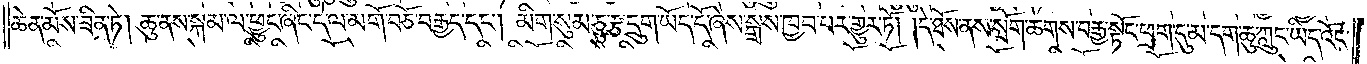ཆེན་མོས་ཟིན་ཏེ། ཆུ་ནས་སྐམ་ལ་ཕྱུང་ཞིང་དེ་ལ་མགོ་བཅོ་བརྒྱད་དང༌། མིག་སུམ་ཅུ་རྩ་དྲུག་ཡོད་དོ་ཞེས་སྒྲས་ཁྱབ་པར་གྱུར་ཏོ། །དེ་ཐོས་ནས་སྲོག་ཆགས་བརྒྱ་སྟོང་ཕྲག་དུ་མ་དག་ཆུ་ཀླུང་ཡིད་འོང་
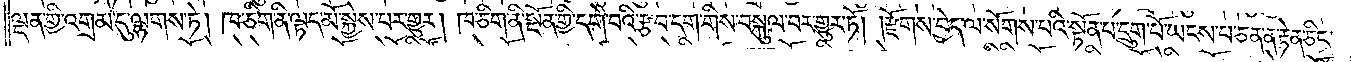ལྡན་གྱི་འགྲམ་དུ་ལྷགས་ཏེ། ཁ་ཅིག་ནི་ལྟད་མོ་སྐྱེས་པར་གྱུར། ཁ་ཅིག་ནི་སྔོན་གྱི་དགེ་བའི་རྩ་བ་དག་གིས་བསྐུལ་པར་གྱུར་ཏོ། །རྫོགས་བྱེད་ལ་སོགས་པའི་སྟོན་པ་དྲུག་པོ་ཡངས་པ་ཅན་ན་རྟེན་ཅིང་
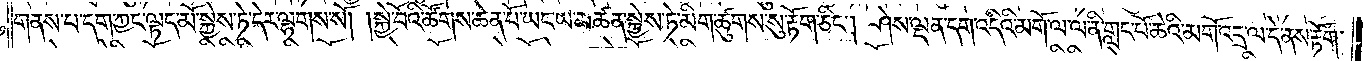གནས་པ་དག་ཀྱང་ལྟད་མོ་སྐྱེས་ཏེ་དེར་ལྷགས་སོ། །སྐྱེ་བོའི་ཚོགས་ཆེན་པོ་ཡང་ཡ་མཚན་སྐྱེས་ཏེ་མིག་ཚུགས་སུ་རྟོག་ཅིང༌། ཤེས་ལྡན་དག་འདིའི་མགོ་ལ་ལ་ནི་གླང་པོ་ཆེའི་མགོ་འདྲ་ལ་དེ་ནས་རྟོག་
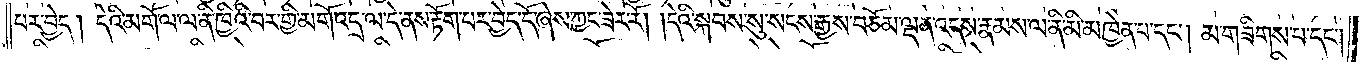པར་བྱེད། དེའི་མགོ་ལ་ལ་ནི་ཁྱིའི་བར་གྱི་མགོ་འདྲ་ལ་དེ་ནས་རྟོག་པར་བྱེད་དོ་ཞེས་ཀྱང་ཟེར་རོ། །དེའི་སྐབས་སུ་སངས་རྒྱས་བཅོམ་ལྡན་འདས་རྣམས་ལ་ནི་མི་མཁྱེན་པ་དང༌། མ་གཟིགས་པ་དང༌།
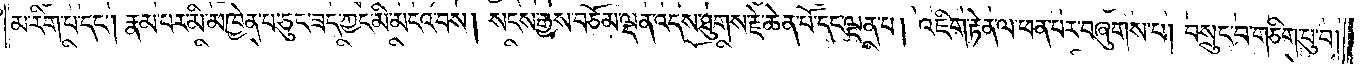མ་རིག་པ་དང༌། རྣམ་པར་མི་མཁྱེན་པ་ཅུང་ཟད་ཀྱང་མི་མངའ་བས། སངས་རྒྱས་བཅོམ་ལྡན་འདས་ཐུགས་རྗེ་ཆེན་པོ་དང་ལྡན་པ། འཇིག་རྟེན་ལ་ཕན་པར་བཞུགས་པ། བསྲུང་བ་གཅིག་པུ་བ།
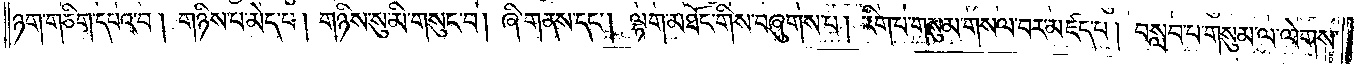ཉག་གཅིག་དཔའ་བ། གཉིས་པ་མེད་པ། གཉིས་སུ་མི་གསུང་བ། ཞི་གནས་དང༌། ལྷག་མཐོང་གིས་བཞུགས་པ། རིག་པ་གསུམ་གསལ་བར་མཛད་པ། བསླབ་པ་གསུམ་ལ་ལེགས་
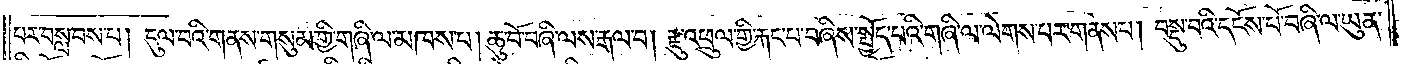པར་བསླབས་པ། དུལ་བའི་གནས་གསུམ་གྱི་གཞི་ལ་མཁས་པ། ཆུ་བོ་བཞི་ལས་རྒལ་བ། རྫུ་འཕྲུལ་གྱི་རྐང་པ་བཞིས་སྤྱོད་པའི་གཞི་ལ་ལེགས་པར་གནས་པ། བསྡུ་བའི་དངོས་པོ་བཞི་ལ་ཡུན་
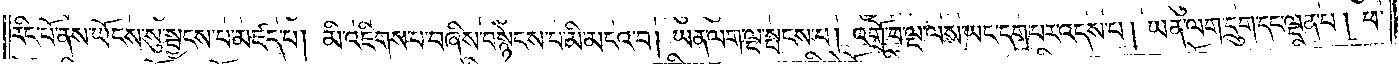རིང་པོ་ནས་ཡོངས་སུ་སྦྱངས་པ་མཛད་པ། མི་འཇིགས་པ་བཞིས་བསྙེངས་པ་མི་མངའ་བ། ཡན་ལག་ལྔ་སྤངས་པ། འགྲོ་བ་ལྔ་ལས་ཡང་དག་པར་འདས་པ། ཡན་ལག་དྲུག་དང་ལྡན་པ། ཕ་
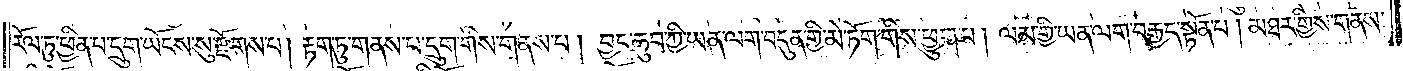རོལ་ཏུ་ཕྱིན་པ་དྲུག་ཡོངས་སུ་རྫོགས་པ། རྟག་ཏུ་གནས་པ་དྲུག་གིས་གནས་པ། བྱང་ཆུབ་ཀྱི་ཡན་ལག་བདུན་གྱི་མེ་ཏོག་གིས་ཕྱུག་པ། ལམ་གྱི་ཡན་ལག་བརྒྱད་སྟོན་པ། མཐར་གྱིས་གནས་
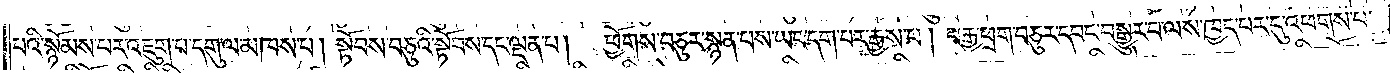པའི་སྙོམས་པར་འཇུག་པ་དགུ་ལ་མཁས་པ། སྟོབས་བཅུའི་སྟོབས་དང་ལྡན་པ། ཕྱོགས་བཅུར་སྙན་པས་ཡང་དག་པར་རྒྱས་པ། བརྒྱ་ཕྲག་བཅུར་དབང་བསྒྱུར་བ་ལས་ཁྱད་པར་དུ་འཕགས་པ་
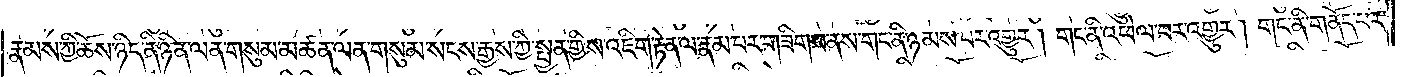རྣམས་ཀྱི་ཆོས་ཉིད་ནི་ཉིན་ལན་གསུམ་མཚན་ལན་གསུམ་སངས་རྒྱས་ཀྱི་སྤྱན་གྱིས་འཇིག་རྟེན་ལ་རྣམ་པར་གཟིགས་ནས་གང་ནི་ཉམས་པར་འགྱུར། གང་ནི་འཕེལ་བར་འགྱུར། གང་ནི་གནོད་པར་
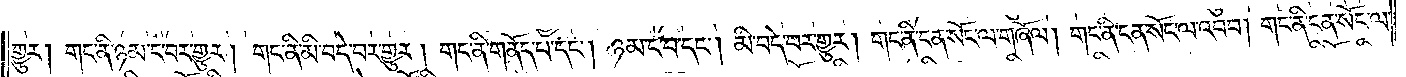གྱུར། གང་ནི་ཉམ་ང་བར་གྱུར། གང་ནི་མི་བདེ་བར་གྱུར། གང་ནི་གནོད་པ་དང༌། ཉམ་ང་བ་དང༌། མི་བདེ་བར་གྱུར། གང་ནི་ངན་སོང་ལ་གཞོལ། གང་ནི་ངན་སོང་ལ་འབབ། གང་ནི་ངན་སོང་ལ་
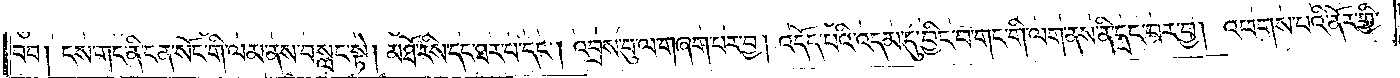བབ། ངས་གང་ནི་ངན་སོང་གི་ལམ་ནས་བསླང་སྟེ། མཐོ་རིས་དང་ཐར་པ་དང༌། འབྲས་བུ་ལ་གཞག་པར་བྱ། འདོད་པའི་འདམ་དུ་བྱིང་པ་གང་གི་ལག་ནས་ནི་དྲང་བར་བྱ། འཕགས་པའི་ནོར་གྱི་
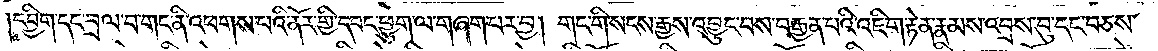དབྱིག་དང་བྲལ་བ་གང་ནི་འཕགས་པའི་ནོར་གྱི་དབང་ཕྱུག་ལ་གཞག་པར་བྱ། གང་གི་སངས་རྒྱས་འབྱུང་བས་བརྒྱན་པའི་འཇིག་རྟེན་རྣམས་འབྲས་བུ་དང་བཅས་
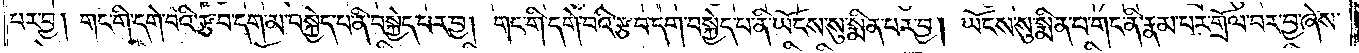པར་བྱ། གང་གི་དགེ་བའི་རྩ་བ་དག་མ་བསྐྱེད་པ་ནི་བསྐྱེད་པར་བྱ། གང་གི་དགེ་བའི་རྩ་བ་དག་བསྐྱེད་པ་ནི་ཡོངས་སུ་སྨིན་པར་བྱ། ཡོངས་སུ་སྨིན་པ་གང་ནི་རྣམ་པར་གྲོལ་བར་བྱ་ཞེས་
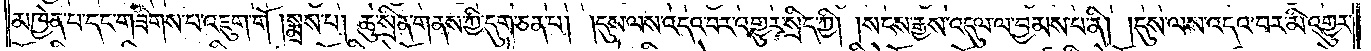མཁྱེན་པ་དང་གཟིགས་པ་འཇུག་གོ །སྨྲས་པ། ཆུ་སྲིན་གནས་ཀྱི་དུག་ཅན་པ། །དུས་ལས་འདའ་བར་འགྱུར་སྲིད་ཀྱི། །སངས་རྒྱས་འདུལ་ལ་བྱམས་པ་ནི། །དུས་ལས་འདའ་བར་མི་འགྱུར་
